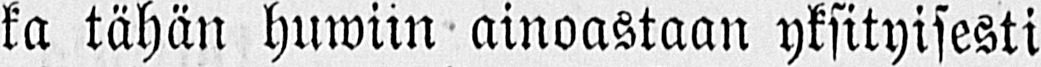ka tähän huwiin ainoastaan yksityisesti
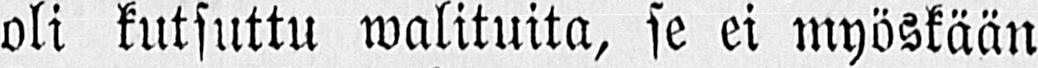oli kutsuttu walituita, se ei myöskään
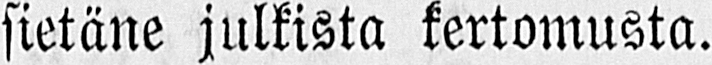sietäne julkista kertomusta.
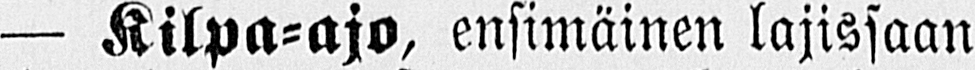— Kilpa-ajo, ensimäinen lajissaan
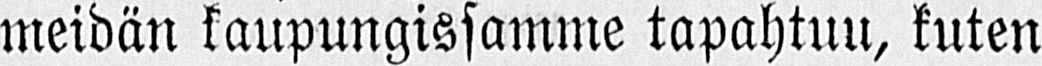meidän kaupungissamme tapahtuu, kuten
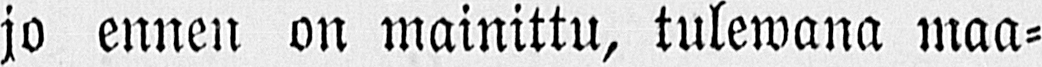jo ennen on mainittu, tulewana maa-
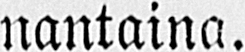nantaina.
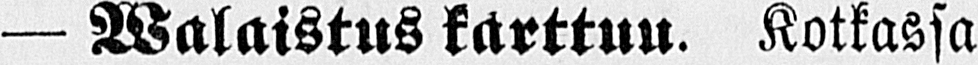— Walaistus karttuu. Kotkassa
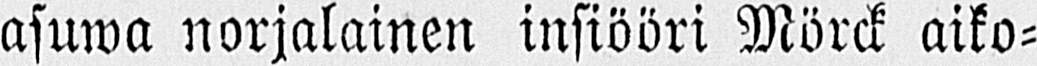asuwa norjalainen insiööri Mörck aiko-
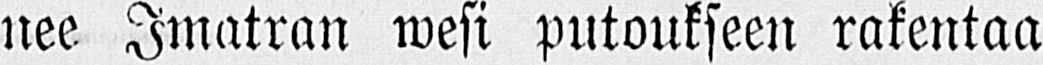nee Imatran wesi putoukseen rakentaa
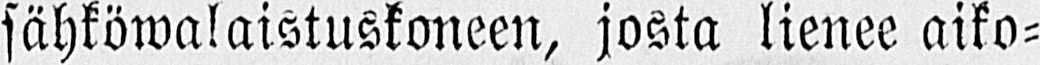sähköwalaistuskoneen, josta lienee aiko-
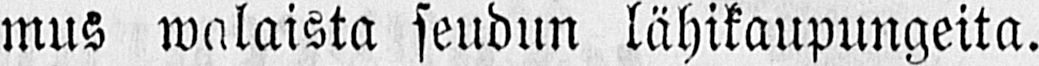mus walaista seudun lähikaupungeita.
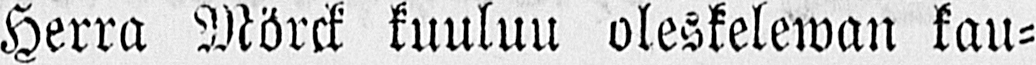Herra Mörck kuuluu oleskelewan kau-
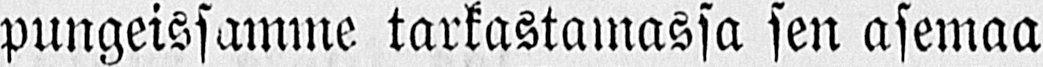pungeissamme tarkastamassa sen asemaa
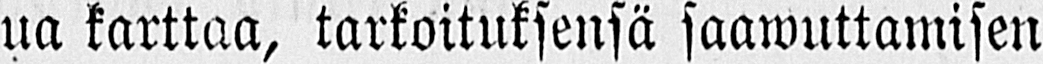ua karttaa, tarkoituksensä saawuttamisen
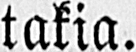takia.
